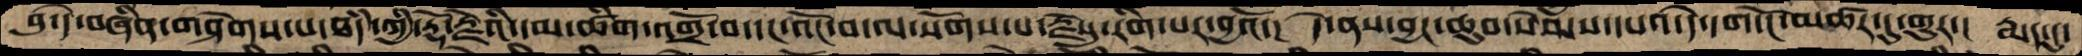བུ་ད་ེབཞིན་གཤེགས་པ་ཐཾད་ཀྱི་རྡོ་རྗེའི་དམ་ཚིག་འགྲོ་བ་དང་འོང་བ་ལ་སོགས་པ་རྗེསུ་རིག་པར་བྱའོ་།  དེ་ནས་བྱང་ཆུབ་སེམས་དཔའ་དེ་དག་ངོ་མཚར་དུ་གྱུར་།  རྨད་དུ་
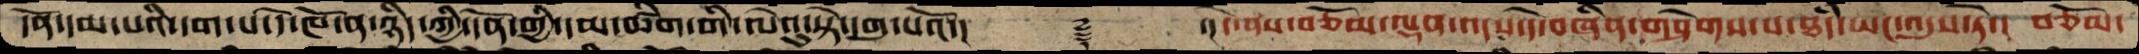དོན་དམ་པའི་དག་པ་དེ་ཁོ་ན་ཉིད་ཀྱི་དོན་གྱི་དམ་ཚིག་གི་ལེའུ་སྟེ་དགུ་པའོ་།    ࿑      ་།དེ་ནས་བཅོམ་ལྡན་འདས་དེ་བཞིན་གཤེགས་པ་ཐཾད་ཡང་འདུས་ཏེ་། བཅོམ་
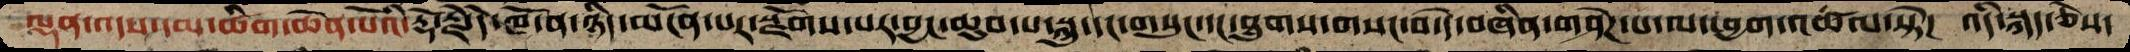ལྡན་འདས་ལ་ཚིག་ཆེན་པོའི་རྡོ་རྗེ་དེ་ཁོ་ན་ཉིད་མངོན་པར་སྫོགས་པར་བྱང་ཆུབ་པ་སྐུ་དང་གསུང་དང་ཐུགས་གསང་བ་དེ་བཞིན་གཤེཌ་པ་ལ་ཕྱག་འཚལ་སྟེ་།  འདི་སྐད་ཅེས་
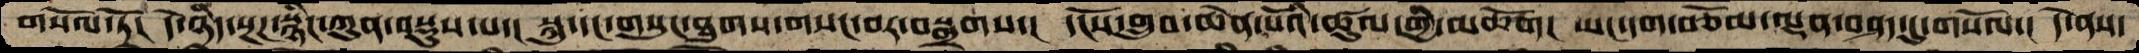གསོལ་ཏོ་།  དེ་ཉིད་སྔཌ་སྙིང་ཀུན་བསྡུས་པ་།  སྐུ་དང་གསུང་ཐུགས་གསང་བར་བསྒྲགས་།  དངོས་གྲུབ་ཆེན་པོའི་ཚུལ་གྱི་མཆོག།  ཡང་དག་བཅོམ་ལྡན་བཤད་དུ་གསོལ་།  དེ་ནས་
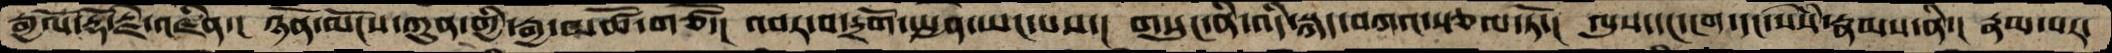རྒྱལོ་རྡོ་རྗེ་འཛིན་།  ཉོན་མོངས་ཀུན་གྱི་རྒྱ་མཚོ་གཙོ་།  འབར་བ་དྲགོ་སྤྱན་ཡང་པས་།  གསུང་ནི་འདི་སྐད་བཀའ་སྩལ་ཏོ་།  ལུས་དང་ངག་དང་སེཾས་རྣམས་ནི་།  རྣམ་པར་
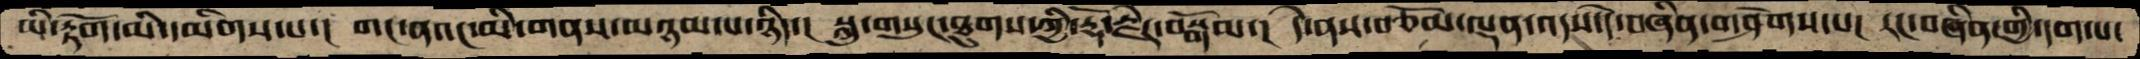མི་རྟོག་མི་དམིགས་པ་།  གང་ནའང་མི་གནས་མཉམ་པ་ཉིད་།  སྐུ་གསུང་ཐུགས་ཀྱི་རྡོ་རྗེར་བསྒོམ་།  དེ་ནས་བཅོམ་ལྡན་འདས་དེ་བཞིན་གཤེགས་པ་།   རང་བཞིན་གྱི་དག་པ་
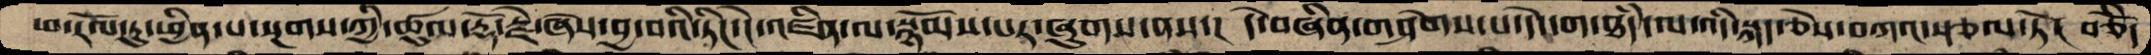ཕ་རོལ་ཏུ་ཕྱིན་པ་སྔགས་ཀྱི་ཚུལ་རྡོ་རྗེ་ཞེས་བྱ་བའི་ཏིང་ངེ་འཛིན་ལ་སྙོམས་པར་ཞུགས་ནས་།  དེ་བཞིན་གཤེགས་པ་དེ་དག་ཐཾད་ལ་འདི་སྐད་ཅེས་བཀའ་སྩལ་ཏོ་།   བཅོཾ་
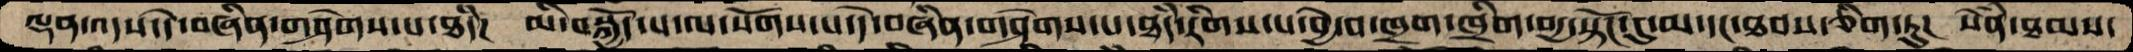ལྡན་འདས་དེ་བཞིན་གཤེགས་པ་ཐཾད།  མི་བསྐྱོད་པ་ལ་སོགས་པ་དེ་བཞིན་གཤེགས་པ་ཐཾད་རིགས་པ་བྱེ་བ་ཁྲག་ཁྲིག་བདྱ་སྟོང་དུ་མ་དང་ཐབས་ཅིག་ཏུ།  སེནཾ་ཐམས་
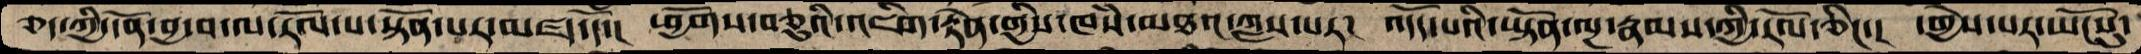ཅད་ཀྱི་དོན་བྱ་བ་ལ་རོལ་པ་སྟོན་པར་མཛད་དོ་།  ཕྱོགས་བཅུའི་འཇིག་རྟེན་གྱིས་ཁཾས་མཐའ་ཀླས་པར།  འདོད་པའི་ཡྟོན་ལྔ་རྣམས་ཀྱི་རོལ་ཅིང་།  དགྱེས་པར་ཡོངསུ་
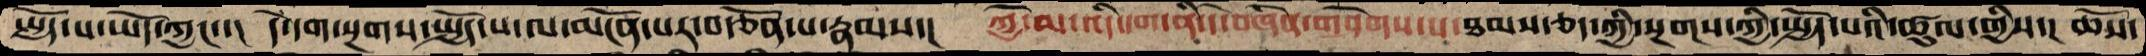སྤྱོད་པ་ཡོད་ཀྱང་་།  དེ་དག་སྔགས་སྤྱོད་པ་ལ་མངོན་པར་བརྩོན་པ་རྣམས་།   ཀྱེ་མ་འདི་དག་ནི་དེ་བཞིན་གཤེགས་པ་ཐམས་ཅད་ཀྱི་སྔགས་ཀྱི་སྤྱོད་པའི་ཚུལ་གྱིས་། ཆོས་
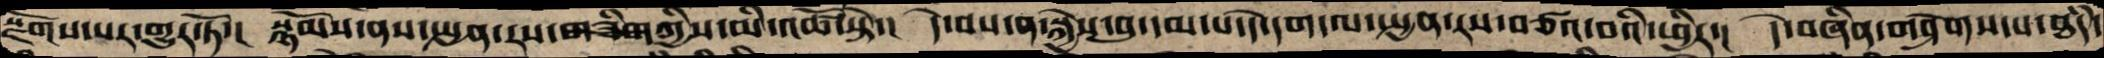སྫོགས་པར་གྱུར་ཏོ་། སྙོམས་ནས་སྤྱན་རས་གཟིགཀྱིས་མི་འཚོ་སྟེ་།  དེ་བས་ན་སྐྱེས་བུ་དམ་པ་དེ་དག་ལ་སྤྱན་རས་བཙའ་བའི་ཕྱིར་།  དེ་བཞིན་གཤེགས་པ་ཐཾད་
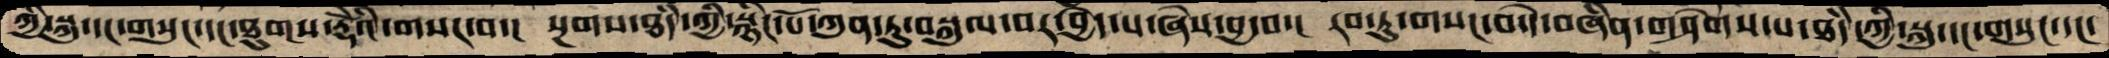ཀྱི་སྐུ་དང་གསུང་དང་ཐུགས་རྡོེའི་གསང་བ་།  སྔགས་ཐཾད་ཀྱི་སྙིང་པོ་ཀུན་ཏུ་བསྐུལ་བར་བྱེད་པ་ཞེས་བྱ་བ་།  རབ་ཏུ་གསང་བ་དེ་བཞིན་གཤེགས་པ་ཐཾད་ཀྱི་སྐུ་དང་གསུང་དང་
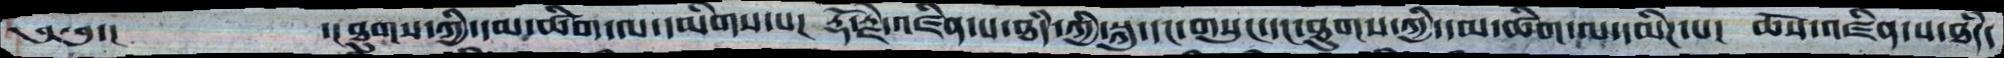༄༅་།      ་།ཐུགས་ཀྱི་དམ་ཚིག་ལ་དམིགས་པ་།  རྡོ་རྗེ་འཛིན་པ་ཐཾད་ཀྱི་སྐུ་དང་གསུང་དང་ཐུགས་ཀྱི་དམ་ཚིག་ལ་དམིཌ་པ།  ཆོས་འཛིན་པ་ཐཾད་
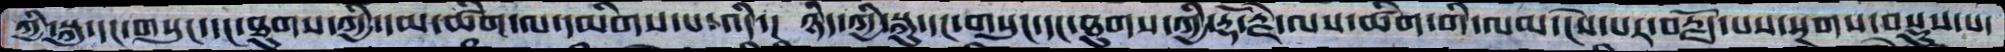ཀྱི་སྐུ་དང་གསུང་དང་ཐུགས་ཀྱི་དམ་ཚིག་ལ་དམིགས་པ་འདི་།  ཉིད་ཀྱི་སྐུ་དང་གསུང་དང་ཐུགས་ཀྱི་རྡོ་རྗེ་ལས་ཚིག་གི་ལམ་ངེས་པར་བརྗོད་པས་སྔགས་བསྡུས་པ་
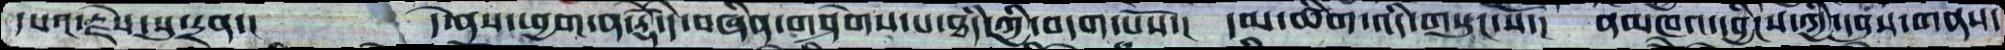དཔའ་རྗེས་སུ་དྲན་།  དེ་ནས་ཕྱག་ན་རྡོེ་དེ་བཞིན་གཤེགས་པ་ཐཾད་ཀྱི་བདག་པོས་།  དམ་ཚིག་འདི་གསུང་སོ་།  ནམཁའ་དབྱིངས་ཀྱི་དབུས་གནས་
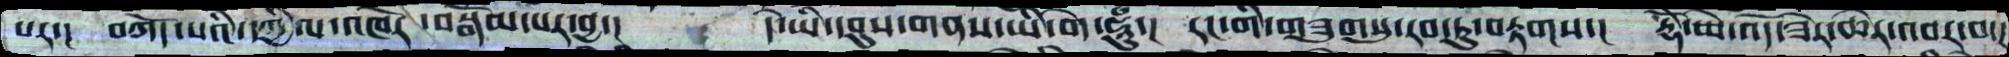པར་།  བཀོད་པའི་དཀྱིལ་འཁོར་བསྒོམ་པར་བྱ་།  དེ་ཡི་དབུས་གནས་ཡི་གེ་ཧཱུཾ་།  རང་གི་གཟུགསུ་རབ་ཏུ་བརྟགས་།  རྡོེ་ཡི་འོད་ཟེར་ཆེར་འབར་བ་།
